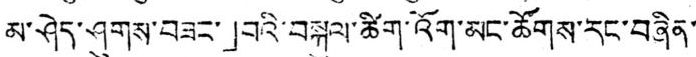མ་ཤེད་ཤུགས་བཟང་」བའི་བསྐུལ་ཚིག་འོག་མང་ཚོགས་རང་བཞིན་
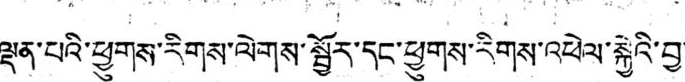ལྡན་པའི་ཕྱུགས་རིགས་ལེགས་སྦྱོར་དང་ཕྱུགས་རིགས་འཕེལ་སྐྱེའི་བྱ་
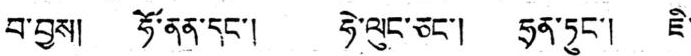བ་བྱས། ཧོ་ནན་དང་། ཧེ་ལུང་ཅང་། ཧྲན་ཏུང་། ཇི་
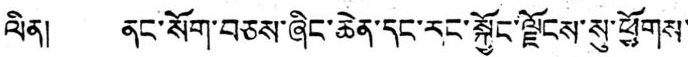ལིན། ནང་སོགས་བཅས་ཞིང་ཆེན་དང་རང་སྐྱོང་ལྗོངས་སུ་ཕྱུགས་
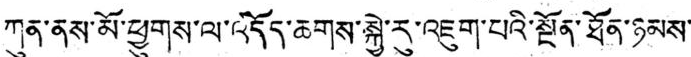ཀུན་ནས་མོ་ཕྱུགས་ལ་འདོད་ཆགས་སྐྱེ་རུ་འཇུག་པའི་སྔོན་ཐོན་ཉམས་
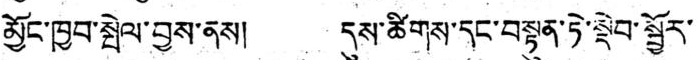མྱོང་ཁྱབ་སྤེལ་བྱས་ནས། དུས་ཚིགས་དང་བསྟུན་ཏེ་སྡེབ་སྦྱོར་
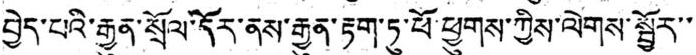བྱེད་པའི་རྒྱུན་སྲོལ་དོར་ནས་རྒྱུན་རྟག་ཏུ་ཕོ་ཕྱུགས་ཀྱིས་ལེགས་སྦྱོར་་
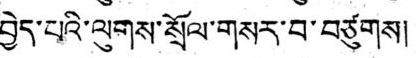བྱེད་པའི་ལུགས་སྲོལ་གསར་བ་བཙུགས།
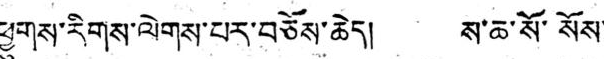ཕྱུགས་རིགས་ལེགས་པར་བཅོས་ཆེད། ས་ཆ་སོ་སོས་
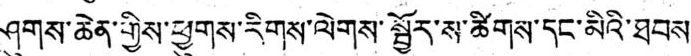ཤུགས་ཆེན་གྱིས་ཕྱུགས་རིགས་ལེགས་སྦྱོར་ས་ཚིགས་དང་མིའི་ཐབས
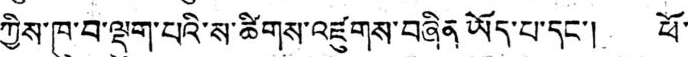ཀྱིས་ཁུ་བ་ལྡུག་པའི་ས་ཚིགས་འཛུགས་བཞིན ཡོད་པ་དང་། ཕོ་
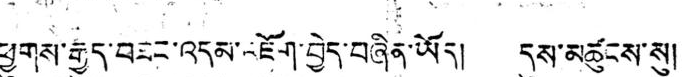ཕྱུགས་རྒྱུད་བཟང་འདམ་འཇོག་བྱེད་བཞིན་ཡོད། དུས་མཚུངས་སུ།
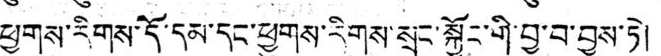ཕྱུགས་རིགས་དོ་དམ་དང་ཕྱུགས་རིགས་སྲུང་སྐྱོང་གི་བྱ་བ་བྱས་ཏེ།
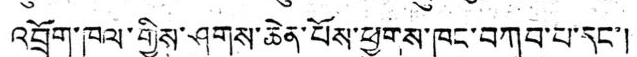འབྲོག་ཁུལ་གྱིས་ཤུགས་ཆེན་པོས་ཕྱུགས་ཁང་བཀབ་པ་དང་།
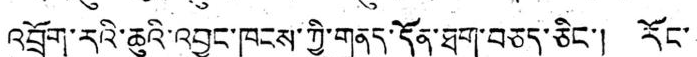འབྲོག་རའི་ཆུའི་འབྱུང་ཁུངས་ཀྱི་གནད་དོན་ཐག་བཅད་ཅིང་། རོང་
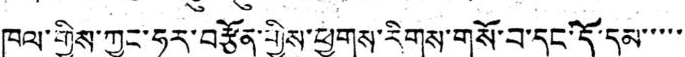ཁུལ་གྱིས་ཀྱང་ཧུར་བརྩོན་གྱིས་ཕྱུགས་རིགས་གསོ་བ་དང་དོ་དམ་་་་་
